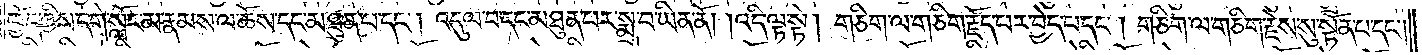ཁྱོད་ཀྱིས་དགེ་སློང་མ་རྣམས་ལ་ཆོས་དང་མཐུན་པ་དང༌། འདུལ་བ་དང་མཐུན་པར་སྨྲ་བ་ཡིན་ནོ། །འདི་ལྟ་སྟེ། གཅིག་ལ་གཅིག་རྗོད་པར་བྱེད་པ་དང༌། གཅིག་ལ་གཅིག་རྗེས་སུ་སྟོན་པ་དང༌།
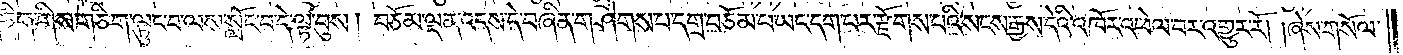ཅིག་གིས་གཅིག་ལྟུང་བ་ལས་སློང་བ་དེ་ལྟ་བུས། བཅོམ་ལྡན་འདས་དེ་བཞིན་གཤེགས་པ་དགྲ་བཅོམ་པ་ཡང་དག་པར་རྫོགས་པའི་སངས་རྒྱས་དེའི་འཁོར་འཕེལ་བར་འགྱུར་རོ། །ཞེས་གསོལ་
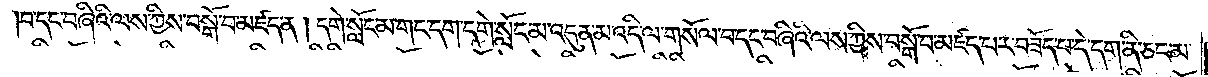བ་དང་བཞིའི་ལས་ཀྱིས་བསྒོ་བ་མཛད་ན། དགེ་སློང་མ་གང་དགེ་སློང་མ་འདུན་མ་འདི་ལ་གསོལ་བ་དང་བཞིའི་ལས་ཀྱིས་བསྒོ་བ་མཛད་པར་བཟོད་པ་དེ་དག་ནི་ཅང་མ་
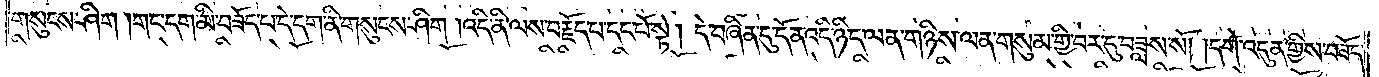གསུངས་ཤིག །གང་དག་མི་བཟོད་པ་དེ་དག་ནི་གསུངས་ཤིག །འདི་ནི་ལས་བརྗོད་པ་དང་པོ་སྟེ། དེ་བཞིན་དུ་དོན་འདི་ཉིད་ལན་གཉིས་ལན་གསུམ་གྱི་བར་དུ་བཟླས་སོ། །དགེ་འདུན་གྱིས་བཟོད་
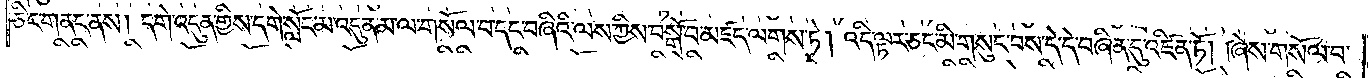ཅིང་གནང་ནས། དགེ་འདུན་གྱིས་དགེ་སློང་མ་འདུན་མ་ལ་གསོལ་བ་དང་བཞིའི་ལས་ཀྱིས་བསྒོ་བ་མཛད་ལགས་ཏེ། འདི་ལྟར་ཅང་མི་གསུང་བས་དེ་དེ་བཞིན་དུ་འཛིན་ཏོ། །ཞེས་གསོལ་བ་
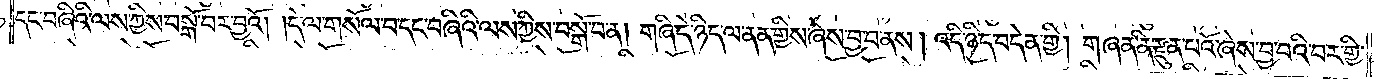དང་བཞིའི་ལས་ཀྱིས་བསྒོ་བར་བྱའོ། །དེ་ལ་གསོལ་བ་དང་བཞིའི་ལས་ཀྱིས་བསྒོ་བ་ན། གཞི་དེ་ཉིད་ལ་ནན་གྱིས་ཞེས་བྱ་བ་ནས། འདི་ཉིད་བདེན་གྱི། གཞན་ནི་རྫུན་པའོ་ཞེས་བྱ་བའི་བར་གྱི་
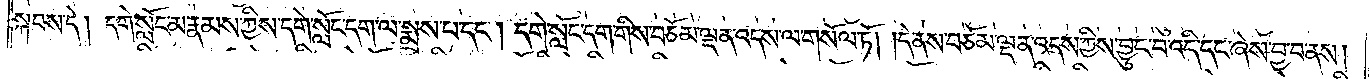སྐབས་དེ། དགེ་སློང་མ་རྣམས་ཀྱིས་དགེ་སློང་དག་ལ་སྨྲས་པ་དང༌། དགེ་སློང་དག་གིས་བཅོམ་ལྡན་འདས་ལ་གསོལ་ཏོ། །དེ་ནས་བཅོམ་ལྡན་འདས་ཀྱིས་བྱུང་བ་འདི་དང་ཞེས་བྱ་བ་ནས།
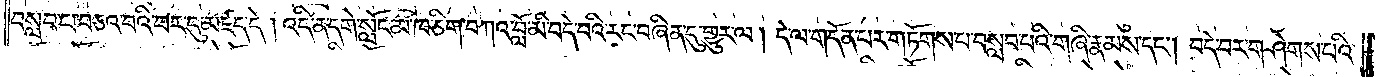བསླབ་པ་བཅའ་བའི་བར་དུ་མཛད་དེ། འདི་ན་དགེ་སློང་མ་ཁ་ཅིག་བཀའ་བློ་མི་བདེ་བའི་རང་བཞིན་དུ་གྱུར་ལ། དེ་ལ་གདོན་པར་གཏོགས་པ་བསླབ་པའི་གཞི་རྣམས་དང༌། བདེ་བར་གཤེགས་པའི་
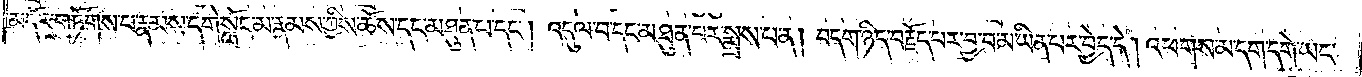མདོར་གཏོགས་པ་རྣམས་དགེ་སློང་མ་རྣམས་ཀྱིས་ཆོས་དང་མཐུན་པ་དང༌། འདུལ་བ་དང་མཐུན་པར་སྨྲས་པ་ན། བདག་ཉིད་བརྗོད་པར་བྱ་བ་མ་ཡིན་པར་བྱེད་དེ། འཕགས་མ་དག་དགེ་ཡང་
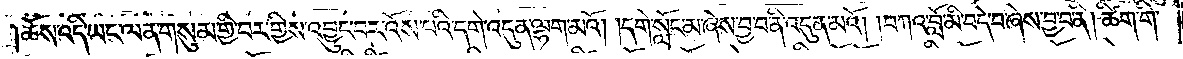ཆོས་འདི་ཡང་ལན་གསུམ་གྱི་བར་གྱིས་འབྱུང་བར་འོས་པའི་དགེ་འདུན་ལྷག་མའོ། །དགེ་སློང་མ་ཞེས་བྱ་བ་ནི་འདུན་མའོ། །བཀའ་བློན་མི་བདེ་བ་ཞེས་བྱ་བ་ནི། ཚིག་གི་
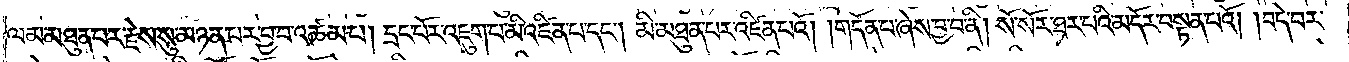ལམ་མཐུན་པར་རྗེས་སུ་མཉམ་པར་བྱ་བ་འཚམ་པ། དྲང་པོར་འཇུག་པ་མི་འཛིན་པ་དང༌། མི་མཐུན་པར་འཛིན་པའོ། །གདོན་པ་ཞེས་བྱ་བ་ནི། སོ་སོར་ཐར་པའི་མདོར་བསྟན་པའོ། །བདེ་བར་
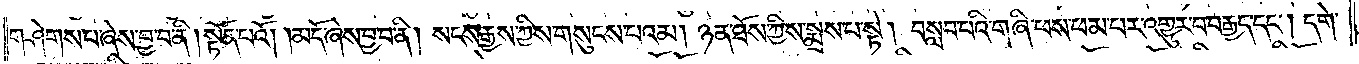གཤེགས་པ་ཞེས་བྱ་བ་ནི། སྟོན་པའོ། །མདོ་ཞེས་བྱ་བ་ནི། སངས་རྒྱས་ཀྱིས་གསུངས་པའམ། ཉན་ཐོས་ཀྱིས་སྨྲས་པ་སྟེ། བསླབ་པའི་གཞི་ཕས་ཕམ་པར་འགྱུར་བ་བརྒྱད་དང༌། དགེ་
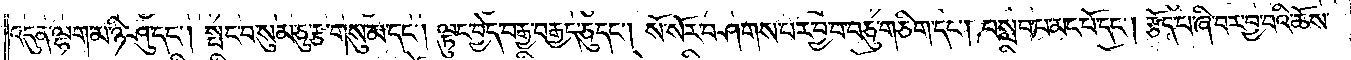འདུན་ལྷག་མ་ཉི་ཤུ་དང༌། སྤང་བ་སུམ་ཅུ་རྩ་གསུམ་དང༌། ལྟུང་བྱེད་བརྒྱ་བརྒྱད་ཅུ་དང༌། སོ་སོར་བཤགས་པར་བྱ་བ་བཅུ་གཅིག་དང༌། བསླབ་པ་མང་པོ་དང༌། རྩོད་པ་བཞི་བར་བྱ་བའི་ཆོས་
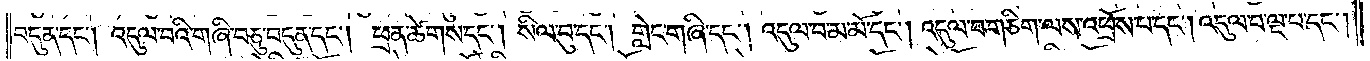བདུན་དང༌། འདུལ་བའི་གཞི་བཅུ་བདུན་དང༌། ཕྲན་ཚེགས་དང༌། སིལ་བུ་དང༌། གླེང་གཞི་དང༌། འདུལ་བ་མ་མོ་དང༌། འདུལ་བ་གཅིག་ལས་འཕྲོས་པ་དང༌། འདུལ་བ་ལྔ་པ་དང༌།
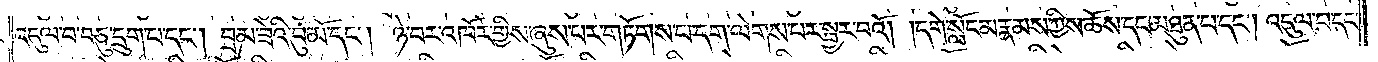འདུལ་བ་བཅུ་དྲུག་པ་དང༌། བྲམ་ཟེའི་བུ་མོ་དང༌། ཉེ་བར་འཁོར་གྱིས་ཞུས་པར་གཏོགས་པ་དག་ལེགས་པར་སྦྱར་བའོ། །དགེ་སློང་མ་རྣམས་ཀྱིས་ཆོས་དང་མཐུན་པ་དང༌། འདུལ་བ་དང་
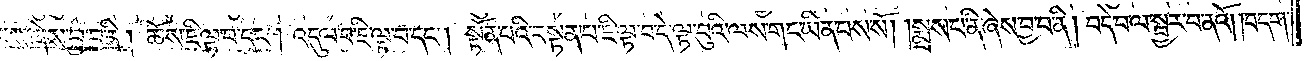མཐུན་པས་ཞེས་བྱ་བ་ནི། ཆོས་ཇི་ལྟ་བ་དང༌། འདུལ་བ་ཇི་ལྟ་བ་དང༌། སྟོན་པའི་བསྟན་པ་ཇི་ལྟ་བ་དེ་ལྟ་བུའི་ལས་གང་ཡིན་པས་སོ། །སྨྲས་པ་ནི་ཞེས་བྱ་བ་ནི། བདེ་བ་ལ་སྦྱར་བ་ནའོ། །བདག་
